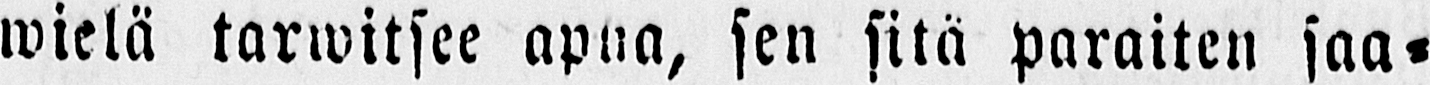wielä tarwitsee apua, sen sitä paraiten saa-
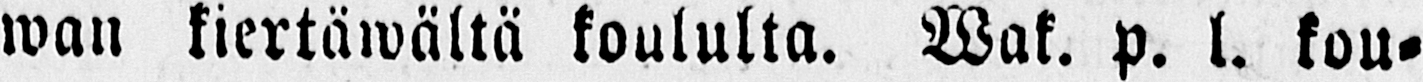wan kiertäwältä koululta. Wak. p. l. kou-
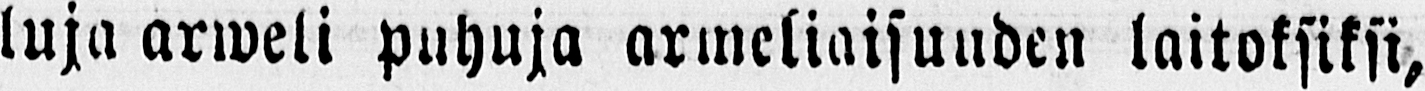luja arweli puhuja armeliaisuuden laitoksiksi,
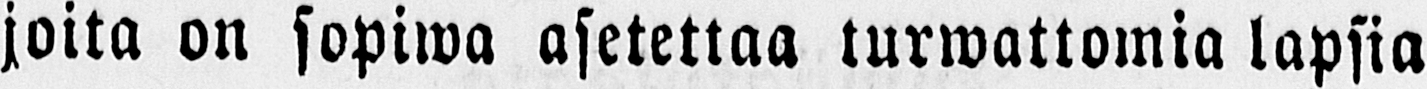joita on sopiwa asetettua turwattomia lapsia
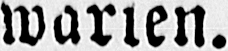warren.
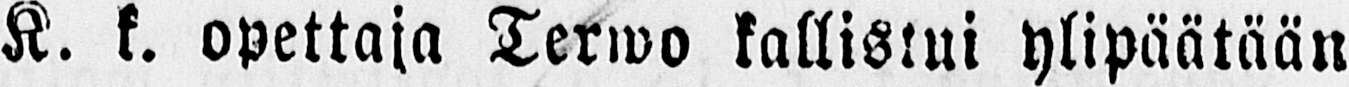K. k. opettaja Terwo kallistui ylipäätään
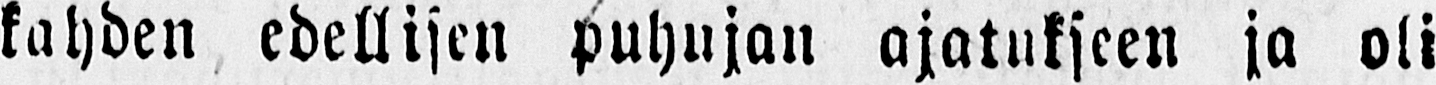kahden edellisen puhujan ajatukseen ja oli
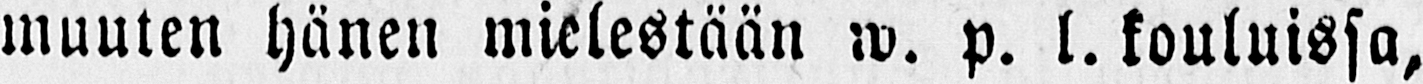muuten hänen mielestään w. p. l. kouluissa,
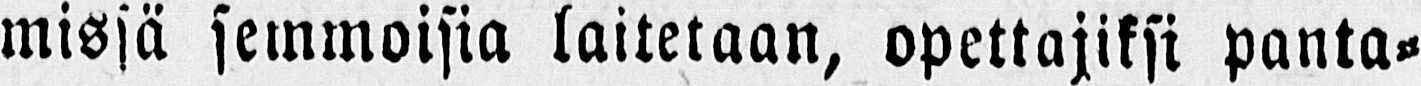missä semmoisia laitetaan, opettajiksi panta-
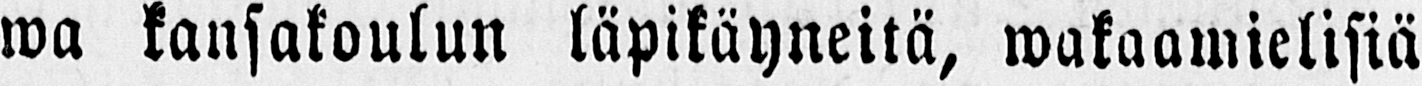wa kansakoulun läpikäyneitä, wakaamielisiä
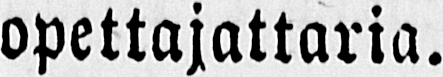opettajattaria.
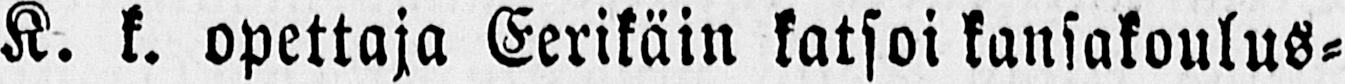K. k. opettaja Eerikäin katsoi kansakoulus-
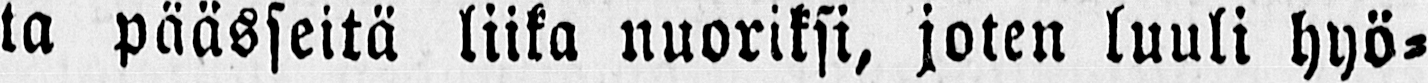ta päässeitä liika nuoriksi, joten luuli hyö-
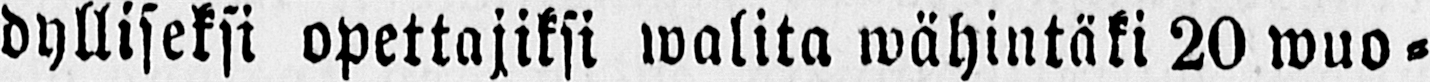dylliseksi opettajiksi walita wähintäki 20 wuo-
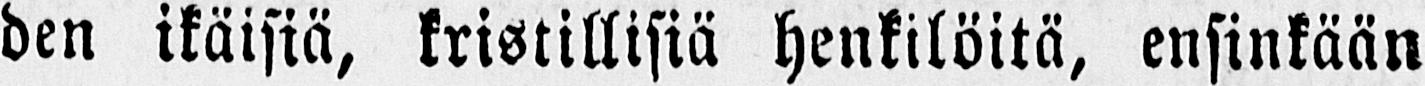den ikäisiä, kristillisiä henkilöitä, ensinkään
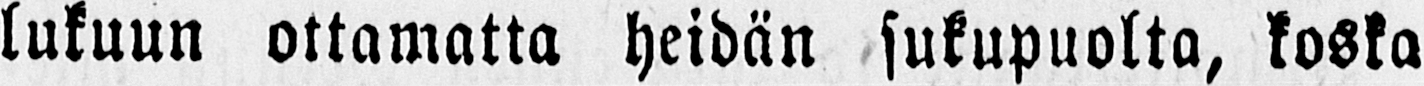lukuun ottamatta heidän sukupuolta, koska
